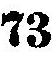73
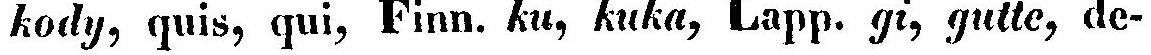kody, quis, qui, Finn. ku, kuka, Lapp. gi, gutte, de-
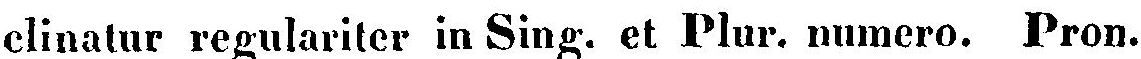clinatur regulariter in Sing. et Plur. numero. Pron.
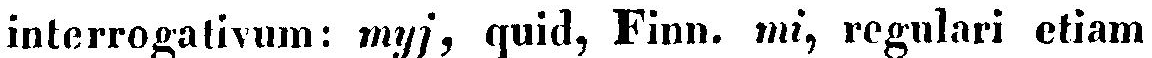interrogativum: myj, quid, Finn. mi, regulari etiam
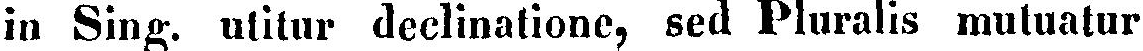in Sing. utitur declinatione, sed Pluralis mutuatur
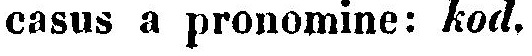casus a pronomine: kod.
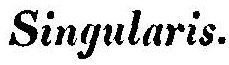Singularis.
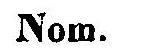Nom.
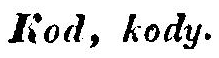Kod, kody.
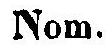Nom.
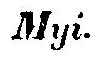Myi.
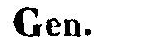Gen.
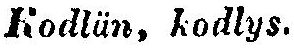Kodlän, kodlys.
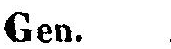Gen.
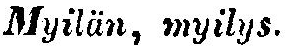Myilän, myilys.
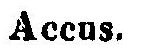Accus.
